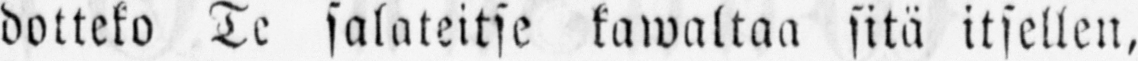dotteko Te salateitse kawaltaa sitä itsellen,
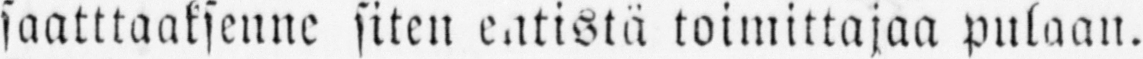saatttaaksenne siten entistä toimittajaa pulaan.
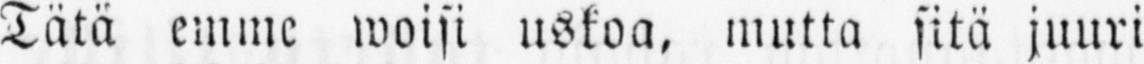Tätä emme woisi uskoa, mutta sitä juuri
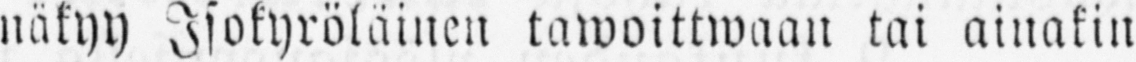näkyy Isokyröläinen tawoittwaan tai ainakin
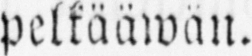pelkääwän.
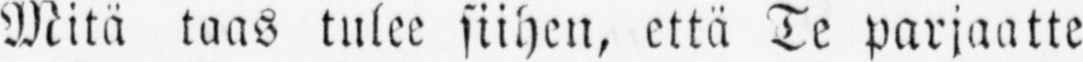Mitä taas tulee siihen, että Te parjaatte
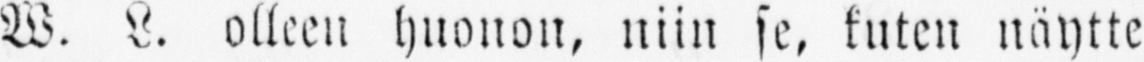W. L. olleen huonon, niin se, kuten näytte
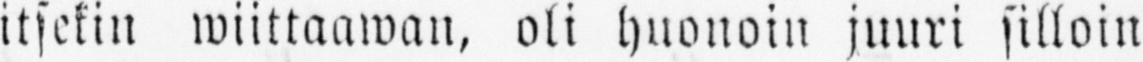itsekin wittaawan, oli huonoin juuri silloin
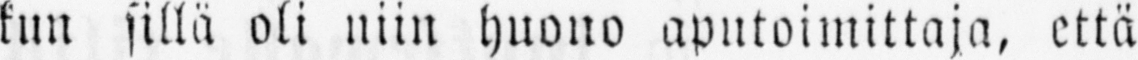kun sillä oli niin huono aputoimittaja, että
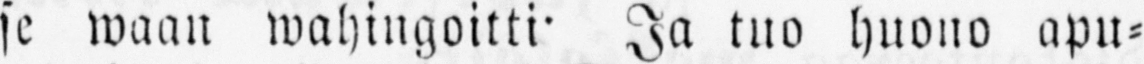se waan wahingoitti. Ja tuo huono apu-
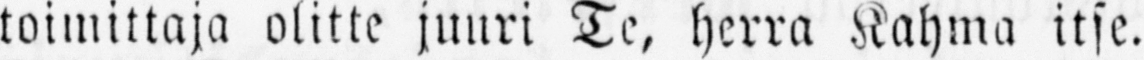toimittaja olitte juuri Te, herra Kahma itse.
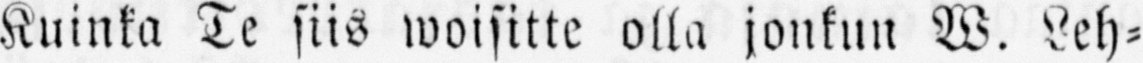Kuinka Te siis woisitte olla jonkun W. Leh-
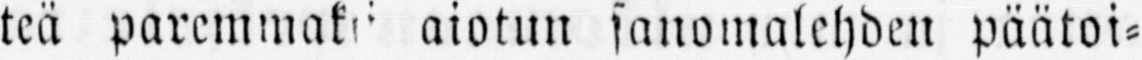teä paremmaksi aiotun sanomalehden päätoi-
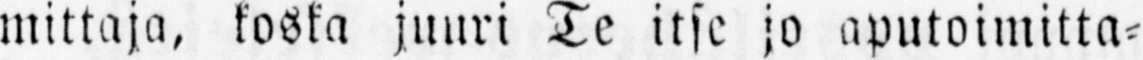mittaja, koska juuri Te itse jo aputoimitta-
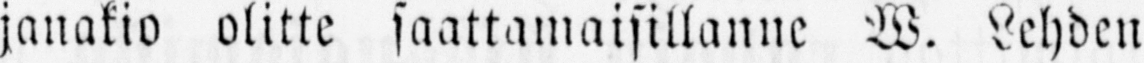janakio olitte saattamaisillanne W. Lehden
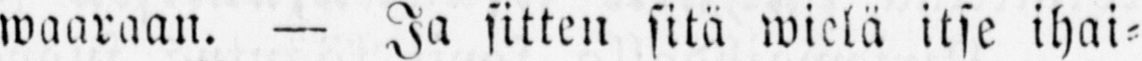waaraan. — Ja sitten sitä wielä itse ihai-
